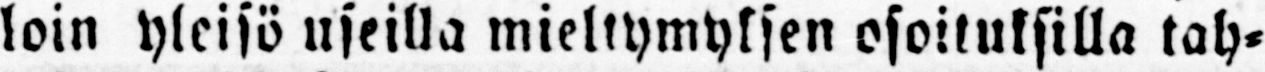loin yleisö useilla mieltymyksen osoituksilla tah-
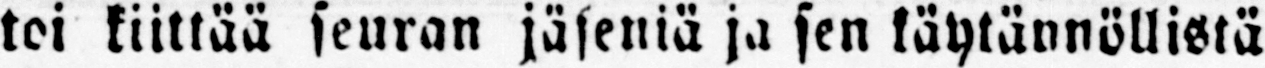toi kiittää seuran jäseniä ja sen käytännöllistä
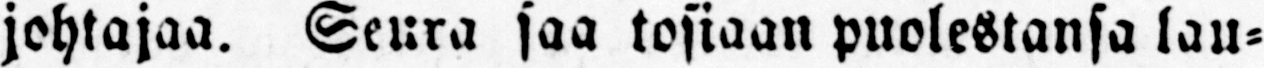johtajaa. Seura saa tosiaan puolestansa lau-
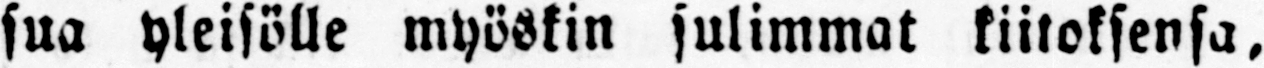sua yleisölle myöskin sulimmat kiitoksensa,
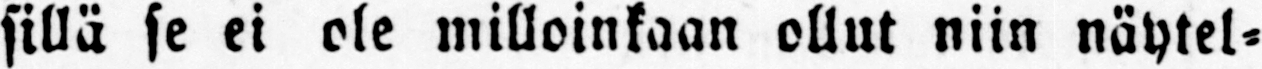sillä se ei ole milloinkaan ollut niin näytel-
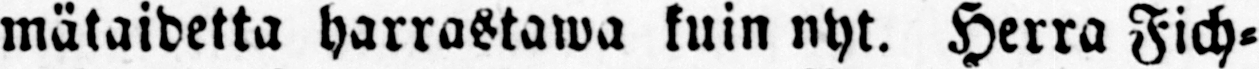mätaidetta harrastawa kuin nyt. Herra Fich-
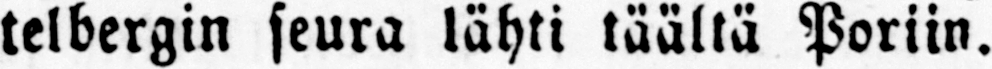telbergin seura lähti täältä Poriin.
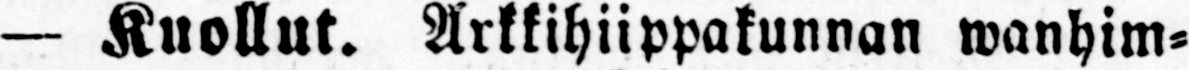— Kuollut. Arkkihiippakunnan wanhim-
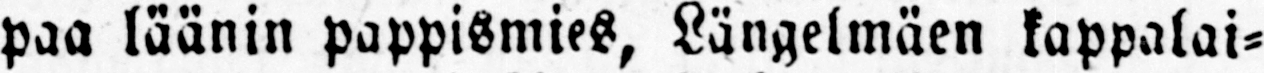paa läänin pappismies, Längelmäen kappalai-
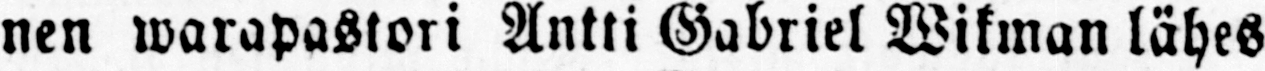nen warapastori Antti Gabriel Vikman lähes
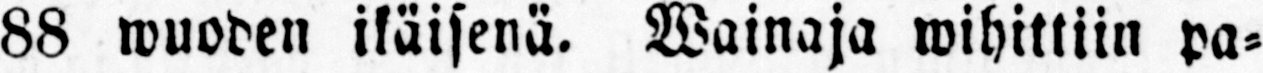88 wuoden ikäisenä. Wainaja wihittiin pa-
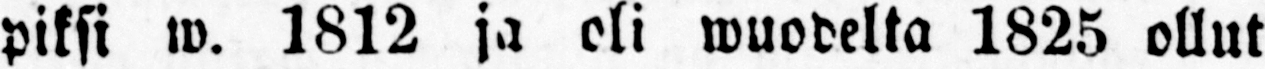piksi w. 1812 ja oli wuodelta 1825 ollut
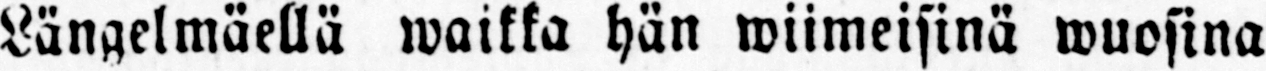Längelmäellä waikka hän wiimeisinä wuosina
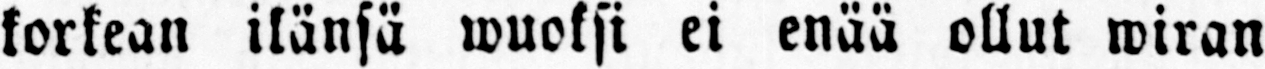korkean itänsä wuoksi ei enää ollut wiran
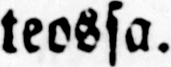teossa.
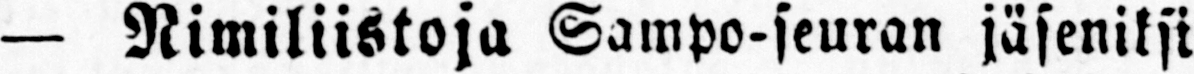— Nimiliistoja Sampo-seuran jäseniksi
